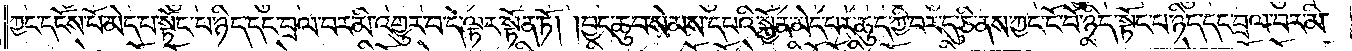ཀྱང་དངོས་པོ་མེད་པ་སྟོང་པ་ཉིད་དང་བྲལ་བར་མི་འགྱུར་བ་དེ་ལྟར་སྟོན་ཏོ། །བྱང་ཆུབ་སེམས་དཔའི་སྐྱོན་མེད་པར་ཆུད་ཀྱི་བར་དུ་ཅི་ནས་ཀྱང་ངོ་བོ་ཉིད་སྟོང་པ་ཉིད་དང་བྲལ་བར་མི་
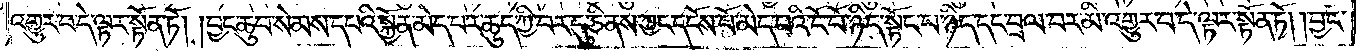འགྱུར་བ་དེ་ལྟར་སྟོན་ཏོ། །བྱང་ཆུབ་སེམས་དཔའི་སྐྱོན་མེད་པར་ཆུད་ཀྱི་བར་དུ་ཅི་ནས་ཀྱང་དངོས་པོ་མེད་པའི་ངོ་བོ་ཉིད་སྟོང་པ་ཉིད་དང་བྲལ་བར་མི་འགྱུར་བ་དེ་ལྟར་སྟོན་ཏོ། །བྱང་
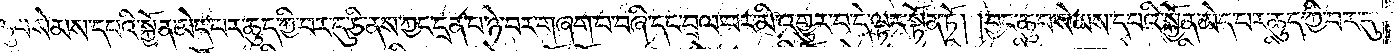ཆུབ་སེམས་དཔའི་སྐྱོན་མེད་པར་ཆུད་ཀྱི་བར་དུ་ཅི་ནས་ཀྱང་དྲན་པ་ཉེ་བར་གཞག་པ་བཞི་དང་བྲལ་བར་མི་འགྱུར་བ་དེ་ལྟར་སྟོན་ཏོ། །བྱང་ཆུབ་སེམས་དཔའི་སྐྱོན་མེད་པར་ཆུད་ཀྱི་བར་དུ་
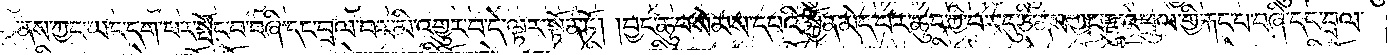ཅི་ནས་ཀྱང་ཡང་དག་པར་སྤོང་བ་བཞི་དང་བྲལ་བར་མི་འགྱུར་བ་དེ་ལྟར་སྟོན་ཏོ། །བྱང་ཆུབ་སེམས་དཔའི་སྐྱོན་མེད་པར་ཆུད་ཀྱི་བར་དུ་ཅི་ནས་ཀྱང་རྫུ་འཕྲུལ་གྱི་རྐང་པ་བཞི་དང་བྲལ་
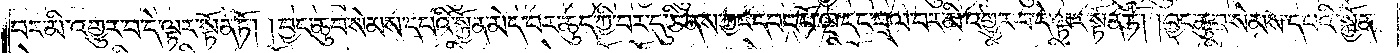བར་མི་འགྱུར་བ་དེ་ལྟར་སྟོན་ཏོ། །བྱང་ཆུབ་སེམས་དཔའི་སྐྱོན་མེད་པར་ཆུད་ཀྱི་བར་དུ་ཅི་ནས་ཀྱང་དབང་པོ་ལྔ་དང་བྲལ་བར་མི་འགྱུར་བ་དེ་ལྟར་སྟོན་ཏོ། །བྱང་ཆུབ་སེམས་དཔའི་སྐྱོན་
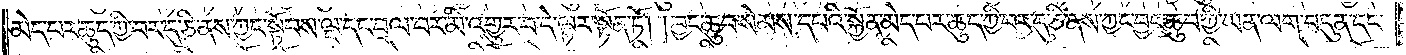མེད་པར་ཆུད་ཀྱི་བར་དུ་ཅི་ནས་ཀྱང་སྟོབས་ལྔ་དང་བྲལ་བར་མི་འགྱུར་བ་དེ་ལྟར་སྟོན་ཏོ། བྱང་ཆུབ་སེམས་དཔའི་སྐྱོན་མེད་པར་ཆུད་ཀྱི་བར་དུ་ཅི་ནས་ཀྱང་བྱང་ཆུབ་ཀྱི་ཡན་ལག་བདུན་དང་
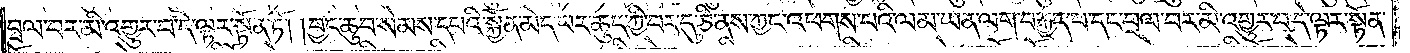བྲལ་བར་མི་འགྱུར་བ་དེ་ལྟར་སྟོན་ཏོ། །བྱང་ཆུབ་སེམས་དཔའི་སྐྱོན་མེད་པར་ཆུད་ཀྱི་བར་དུ་ཅི་ནས་ཀྱང་འཕགས་པའི་ལམ་ཡན་ལག་བརྒྱད་པ་དང་བྲལ་བར་མི་འགྱུར་བ་དེ་ལྟར་སྟོན་
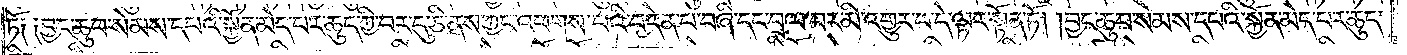ཏོ༑ ༑བྱང་ཆུབ་སེམས་དཔའི་སྐྱོན་མེད་པར་ཆུད་ཀྱི་བར་དུ་ཅི་ནས་ཀྱང་འཕགས་པའི་བདེན་པ་བཞི་དང་བྲལ་བར་མི་འགྱུར་བ་དེ་ལྟར་སྟོན་ཏོ། །བྱང་ཆུབ་སེམས་དཔའི་སྐྱོན་མེད་པར་ཆུད་
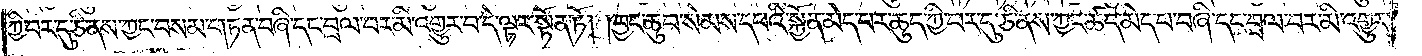ཀྱི་བར་དུ་ཅི་ནས་ཀྱང་བསམ་གཏན་བཞི་དང་བྲལ་བར་མི་འགྱུར་བ་དེ་ལྟར་སྟོན་ཏོ། །བྱང་ཆུབ་སེམས་དཔའི་སྐྱོན་མེད་པར་ཆུད་ཀྱི་བར་དུ་ཅི་ནས་ཀྱང་ཚད་མེད་པ་བཞི་དང་བྲལ་བར་མི་འགྱུར་
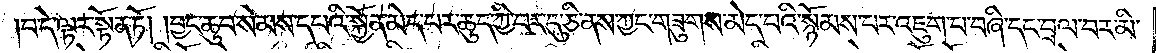བ་དེ་ལྟར་སྟོན་ཏོ། །བྱང་ཆུབ་སེམས་དཔའི་སྐྱོན་མེད་པར་ཆུད་ཀྱི་བར་དུ་ཅི་ནས་ཀྱང་གཟུགས་མེད་པའི་སྙོམས་པར་འཇུག་པ་བཞི་དང་བྲལ་བར་མི་
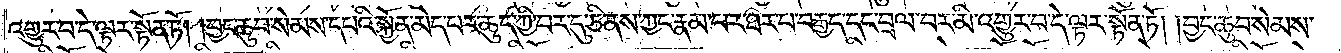འགྱུར་བ་དེ་ལྟར་སྟོན་ཏོ། །བྱང་ཆུབ་སེམས་དཔའི་སྐྱོན་མེད་པར་ཆུད་ཀྱི་བར་དུ་ཅི་ནས་ཀྱང་རྣམ་པར་ཐར་བ་བརྒྱད་དང་བྲལ་བར་མི་འགྱུར་བ་དེ་ལྟར་སྟོན་ཏོ། །བྱང་ཆུབ་སེམས་
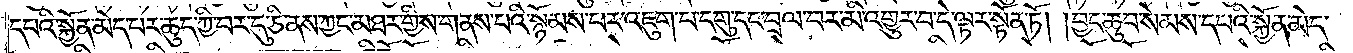དཔའི་སྐྱོན་མེད་པར་ཆུད་ཀྱི་བར་དུ་ཅི་ནས་ཀྱང་མཐར་གྱིས་གནས་པའི་སྙོམས་པར་འཇུག་པ་དགུ་དང་བྲལ་བར་མི་འགྱུར་བ་དེ་ལྟར་སྟོན་ཏོ། །བྱང་ཆུབ་སེམས་དཔའི་སྐྱོན་མེད་
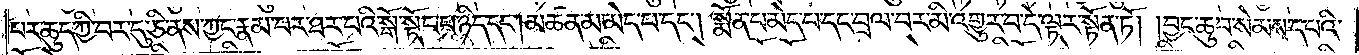པར་ཆུད་ཀྱི་བར་དུ་ཅི་ནས་ཀྱང་རྣམ་པར་ཐར་པའི་སྒོ་སྟོང་བ་ཉིད་དང༌། མཚན་མ་མེད་པ་དང༌། སྨོན་པ་མེད་པ་དང་བྲལ་བར་མི་འགྱུར་བ་དེ་ལྟར་སྟོན་ཏོ། །བྱང་ཆུབ་སེམས་དཔའི་
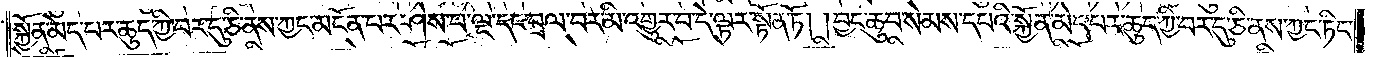སྐྱོན་མེད་པར་ཆུད་ཀྱི་བར་དུ་ཅི་ནས་ཀྱང་མངོན་པར་ཤེས་པ་ལྔ་དང་བྲལ་བར་མི་འགྱུར་བ་དེ་ལྟར་སྟོན་ཏོ། །བྱང་ཆུབ་སེམས་དཔའི་སྐྱོན་མེད་པར་ཆུད་ཀྱི་བར་དུ་ཅི་ནས་ཀྱང་ཏིང་
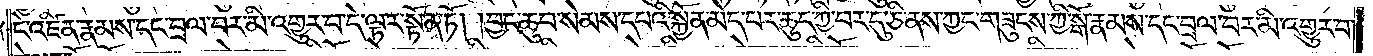ངེ་འཛིན་རྣམས་དང་བྲལ་བར་མི་འགྱུར་བ་དེ་ལྟར་སྟོན་ཏོ། །བྱང་ཆུབ་སེམས་དཔའི་སྐྱོན་མེད་པར་ཆུད་ཀྱི་བར་དུ་ཅི་ནས་ཀྱང་གཟུངས་ཀྱི་སྒོ་རྣམས་དང་བྲལ་བར་མི་འགྱུར་བ་
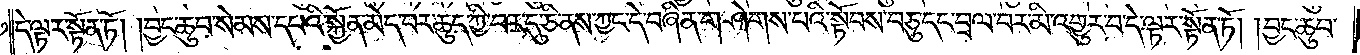དེ་ལྟར་སྟོན་ཏོ། །བྱང་ཆུབ་སེམས་དཔའི་སྐྱོན་མེད་པར་ཆུད་ཀྱི་བར་དུ་ཅི་ནས་ཀྱང་དེ་བཞིན་གཤེགས་པའི་སྟོབས་བཅུ་དང་བྲལ་བར་མི་འགྱུར་བ་དེ་ལྟར་སྟོན་ཏོ། །བྱང་ཆུབ་
